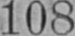108
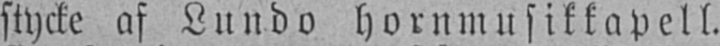stycke af Lundo hornmusik kapell.
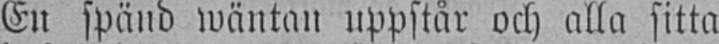En spänd wäntan uppstår och alla sitta
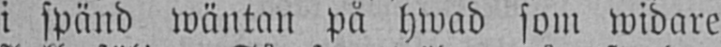i spänd wäntan på hwad som widare
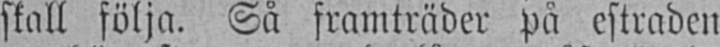skall följa. Så framträder på estraden
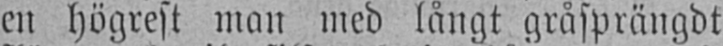en högrest man med långt gråsprängdt
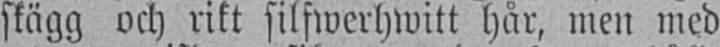skägg och rikt silfwerhwitt hår, men med
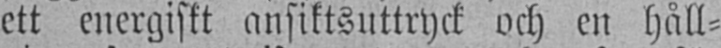ett energiskt ansiktsuttryck och en håll-
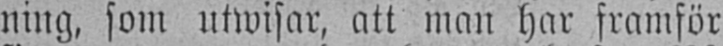ning, som utwisar, att man har framför
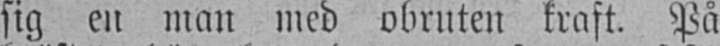sig en man med obruten kraft. På
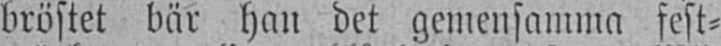bröstet bär han det gemensamma fest-
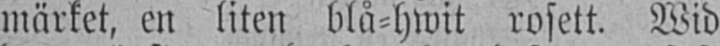märket, en liten blå-hwit rosett. Wid
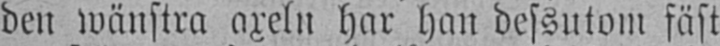den wänstra axeln har han dessutom fäst
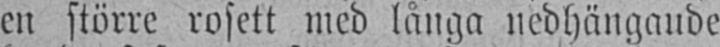en större rosett med långa nedhängande
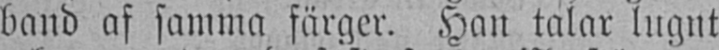band af samma färger. Han talar lugnt
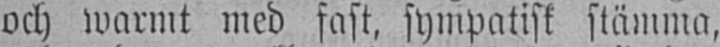och warmt med fast, sympatisk stämma,
